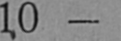10
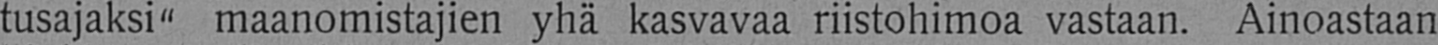tusajaksi" maanomistajien yhä kasvavaa riistohimoa vastaan. Ainoastaan
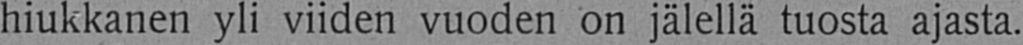hiukkanen yli viiden vuoden on jälellä tuosta ajasta.
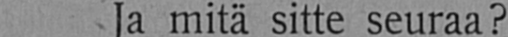Ja mitä sitte seuraa?
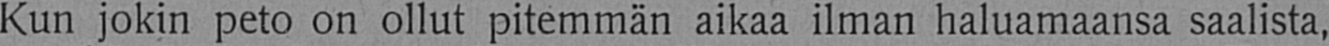Kun jokin peto on ollut pitemmän aikaa ilman haluamaansa saalista,
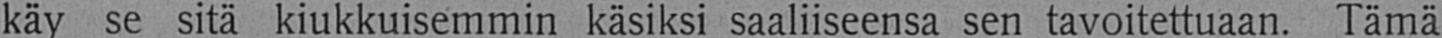käy se sitä kiukkuisemmin käsiksi saaliiseensa sen tavoitettuaan. Tämä
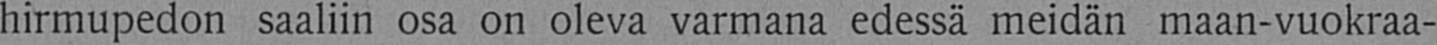hirmupedon saaliin osa on oleva varmana edessä meidän maan-vuokraa-
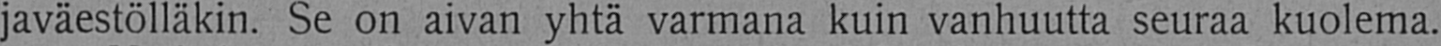javäestölläkin. Se on aivan yhtä varmana kuin vanhuutta seuraa kuolema.
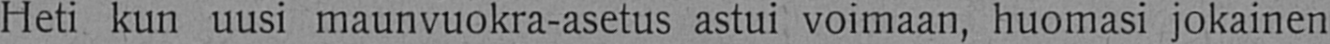Heti kun uusi maunvuokra-asetus astui voimaan, huomasi jokainen
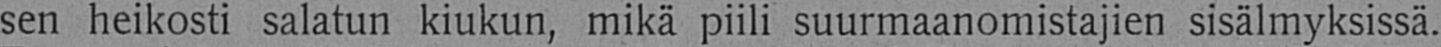sen heikosti salatun kiukun, mikä piili suurmaanomistajien sisälmyksissä.
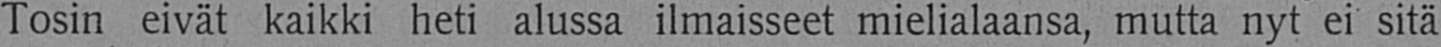Tosin eivät kaikki heti alussa ilmaisseet mielialaansa, mutta nyt ei sitä
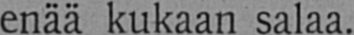enää kukaan salaa.
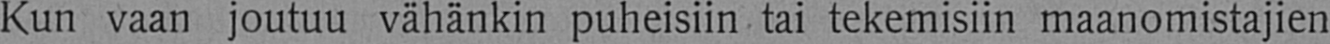Kun vaan joutuu vähänkin puheisiin tai tekemisiin maanomistajien
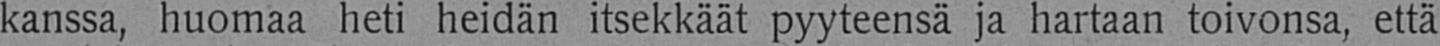kanssa, huomaa heti heidän itsekkäät pyyteensä ja hartaan toivonsa, että
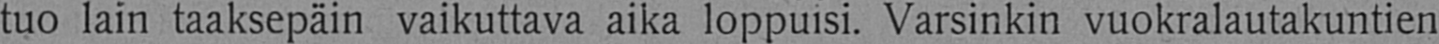tuo lain taaksepäin vaikuttava aika loppuisi. Varsinkin vuokralautakuntien
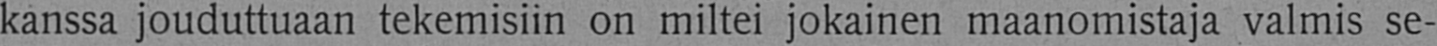kanssa jouduttuaan tekemisiin on miltei jokainen maanomistaja valmis se-
